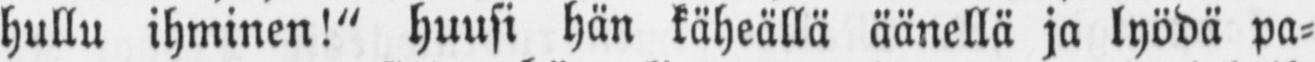hullu ihminen!" huusi hän käheällä äänellä ja lyödä pa-
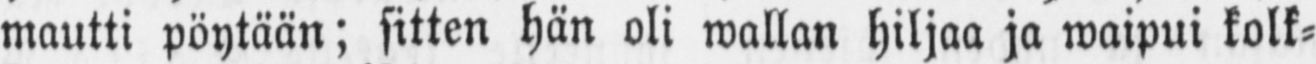mautti pöytään; sitten hän oli wallan hiljaa ja waipui kolk-
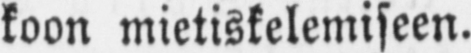koon mieliskelemiseen.
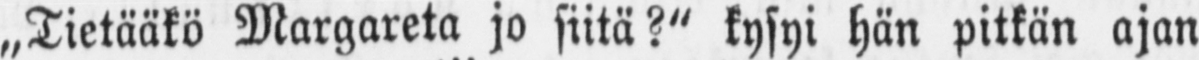„Tietääkö Margareta jo siitä?" kysyi hän pitkän ajan
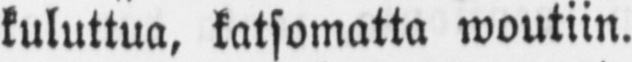kuluttua, katsomatta woutiin.
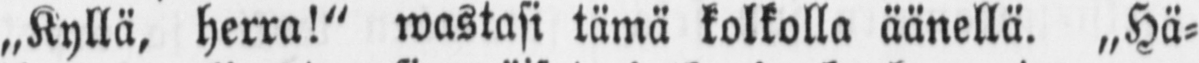„Kyllä, herra!" wastasi tämä kolkolla äänellä. „Hä-
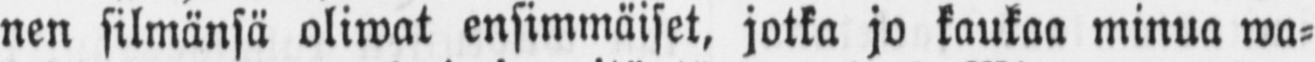nen silmänsä oliwat ensimmäiset, jotka jo kaukaa minua wa-
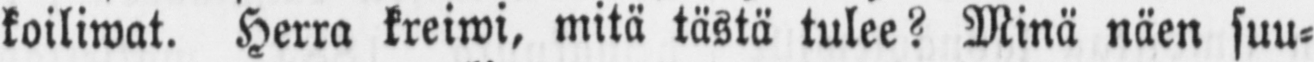koiliwat. Herra kreiwi, mitä tästä tulee? Minä näen suu-
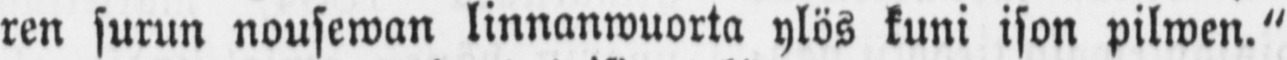ren surun nousewan linnanwuorta ylös kuni ison pilwen."
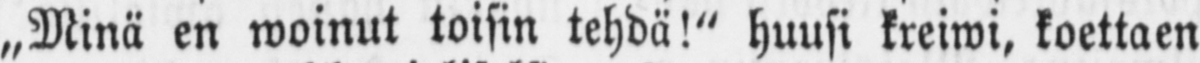„Minä en woinut toisin tehdä!" huusi kreiwi, koettaen
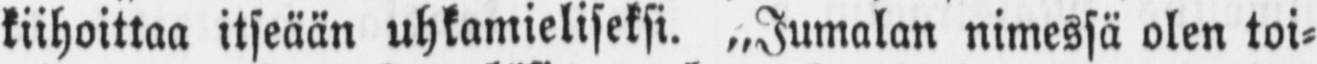kiihoittaa itseään uhkamieliseksi. „Jumalan nimessä olen toi-
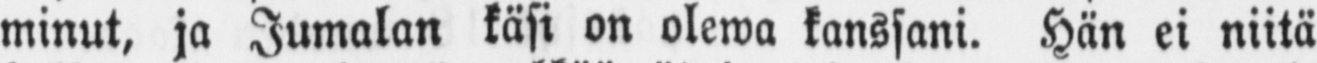minut, ja Jumalan käsi on olewa kanssani. Hän ei niitä
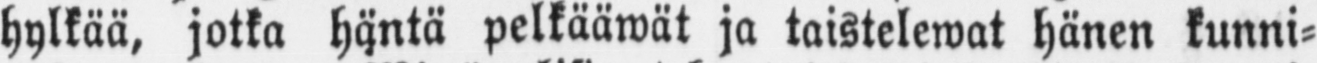hylkää, jotka häntä pelkääwät ja taistelewat hänen kunni-
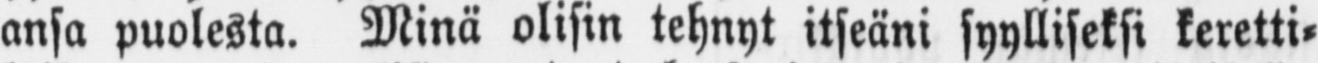ansa puolesta. Minä olisin tehnyt itseäni syylliseksi keretti-
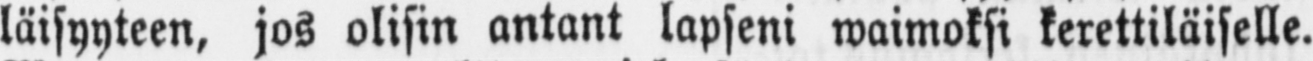läisyyteen, jos olisin antant lapseni waimoksi kerettiläiselle.
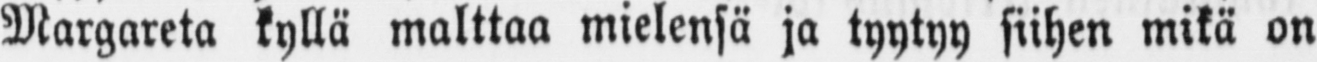Margareta kyllä malttaa mielensä ja tyytyy siihen mikä on
